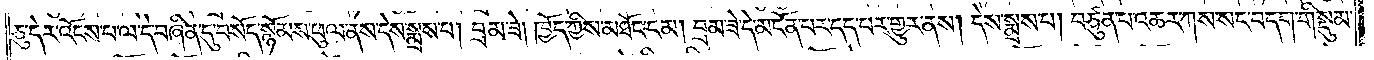ཅུ་དེར་འོངས་པ་ལ་དེ་བཞིན་དུ་བསོད་སྙོམས་ཕུལ་ནས་དེས་སྨྲས་པ། བྲམ་ཟེ། ཁྱོད་ཀྱིས་མཐོང་ངམ། བྲམ་ཟེ་དེ་མངོན་པར་དད་པར་གྱུར་ནས། དེས་སྨྲས་པ། བཙུན་པ་འཆར་ཀས་སང་བདག་གི་སྡུམ་
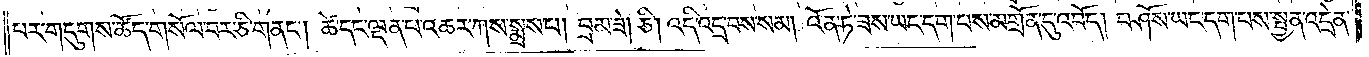པར་གདུགས་ཚོད་གསོལ་བར་ཅི་གནང༌། ཚེ་དང་ལྡན་པ་འཆར་ཀས་སྨྲས་པ། བྲམ་ཟེ། ཅི། འདི་འདྲ་བས་སམ། འོན་ཏེ་ཟས་ཡང་དག་པས་མགྲོན་དུ་འབོད། བཤོས་ཡང་དག་པས་སྤྱན་འདྲེན་
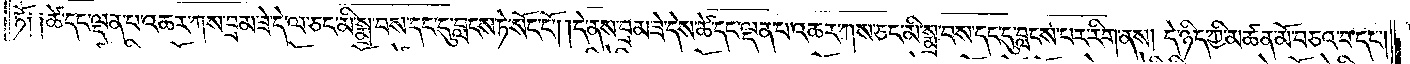ཏོ། །ཚེ་དང་ལྡན་པ་འཆར་ཀས་བྲམ་ཟེ་དེ་ལ་ཅང་མི་སྨྲ་བས་དང་དུ་བླངས་ཏེ་སོང་ངོ༌། །དེ་ནས་བྲམ་ཟེ་དེས་ཚེ་དང་ལྡན་པ་འཆར་ཀས་ཅང་མི་སྨྲ་བས་དང་དུ་བླངས་པར་རིག་ནས། དེ་ཉིད་ཀྱི་མཚན་མོ་བཅའ་བ་དང༌།
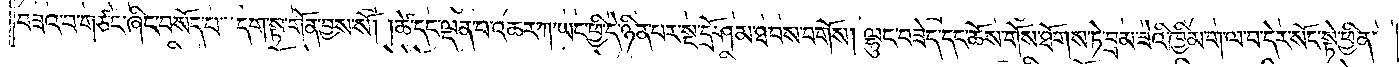བཟའ་བ་གཙང་ཞིང་བསོད་པ་དག་སྟ་གོན་བྱས་སོ། །ཚེ་དང་ལྡན་པ་འཆར་ཀ་ཡང་ཕྱི་དེ་ཉིན་པར་སྔ་དྲོ་ཤམ་ཐབས་བགོས། ལྷུང་བཟེད་དང་ཆོས་གོས་ཐོགས་ཏེ་བྲམ་ཟེའི་ཁྱིམ་ག་ལ་བ་དེར་སོང་སྟེ་ཕྱིན་
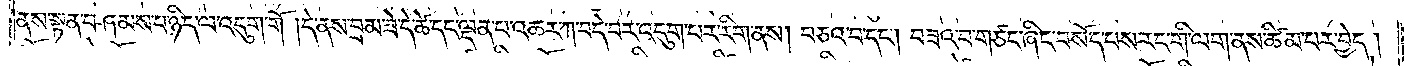ནས་སྟན་བཤམས་པ་ཉིད་ལ་འདུག་གོ །དེ་ནས་བྲམ་ཟེ་དེ་ཚེ་དང་ལྡན་པ་འཆར་ཀ་བདེ་བར་འདུག་པར་རིག་ནས། བཅའ་བ་དང༌། བཟའ་བ་གཙང་ཞིང་བསོད་པས་རང་གི་ལག་ནས་ཚིམ་པར་བྱེད་།
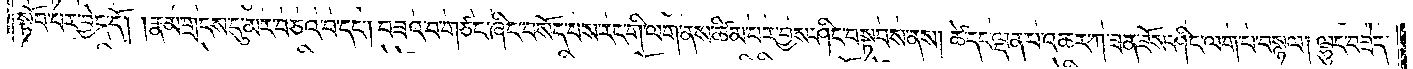སྟོབ་པར་བྱེད་དོ། །རྣམ་གྲངས་དུ་མར་བཅའ་བ་དང༌། བཟའ་བ་གཙང་ཞིང་བསོད་པས་རང་གི་ལག་ནས་ཚིམ་པར་བྱས་ཤིང་བསྟབས་ནས། ཚེ་དང་ལྡན་པ་འཆར་ཀ་ཟན་ཟོས་ཤིང་ལག་པ་བསྙལ། ལྷུང་བཟེད་
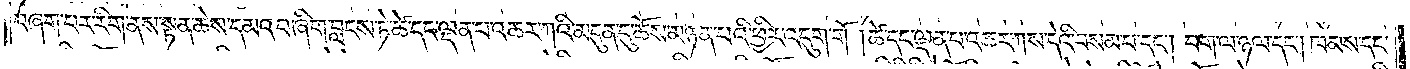བཞག་པར་རིག་ནས་སྟན་ཆེས་དམའ་བ་ཞིག་བླངས་ཏེ་ཚེ་དང་ལྡན་པ་འཆར་ཀའི་མདུན་དུ་ཆོས་མཉན་པའི་ཕྱིར་འདུག་གོ །ཚེ་དང་ལྡན་པ་འཆར་ཀས་དེའི་བསམ་པ་དང༌། བག་ལ་ཉལ་དང༌། ཁམས་དང་
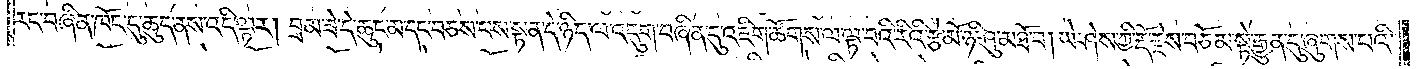རང་བཞིན་ཁོང་དུ་ཆུད་ནས་འདི་ལྟར། བྲམ་ཟེ་དེ་ཆུང་མ་དང་བཅས་པས་སྟན་དེ་ཉིད་ལ་འདུག་བཞིན་དུ་འཇིག་ཚོགས་ལ་ལྟ་བའི་རིའི་རྩེ་མོ་ཉི་ཤུ་མཐོ་བ། ཡེ་ཤེས་ཀྱི་རྡོ་རྗེ་བཅོམ་སྟེ་རྒྱུན་དུ་ཞུགས་པའི་
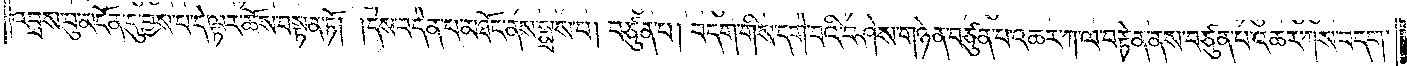འབྲས་བུ་མངོན་དུ་བྱས་པ་དེ་ལྟར་ཆོས་བསྟན་ཏོ། །དེས་བདེན་པ་མཐོང་ནས་སྨྲས་པ། བཙུན་པ། བདག་གིས་དགེ་བའི་བཤེས་གཉེན་བཙུན་པ་འཆར་ཀ་ལ་བརྟེན་ནས་བཙུན་པ་འཆར་ཀས་བདག་
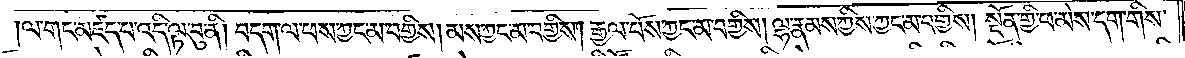།ལ་གང་མཛད་པ་འདི་ལྟ་བུ་ནི། བདག་ལ་ཕས་ཀྱང་མ་བགྱིས། མས་ཀྱང་མ་བགྱིས། རྒྱལ་པོས་ཀྱང་མ་བགྱིས། ལྷ་རྣམས་ཀྱིས་ཀྱང་མ་བགྱིས། སྔོན་གྱི་ཕ་མེས་དག་གིས་
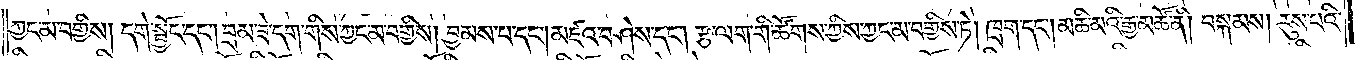ཀྱང་མ་བགྱིས། དགེ་སྦྱོང་དང༌། བྲམ་ཟེ་དག་གིས་ཀྱང་མ་བགྱིས། བྱམས་པ་དང༌། མཛའ་བཤེས་དང༌། རྩ་ལག་གི་ཚོགས་ཀྱིས་ཀྱང་མ་བགྱིས་ཏེ། ཁྲག་དང༌། མཆི་མའི་རྒྱ་མཚོ་ནི། བསྐམས། རུས་པའི་
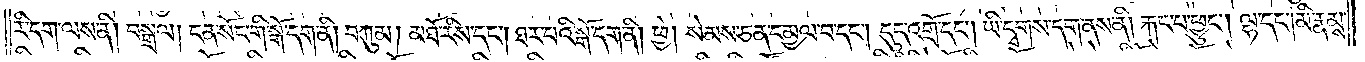རི་དག་ལས་ནི། བསྒྲལ། ངན་སོང་གི་སྒོ་དག་ནི། བཀུམ། མཐོ་རིས་དང༌། ཐར་པའི་སྒོ་དག་ནི། ཕྱེ། སེམས་ཅན་དམྱལ་བ་དང༌། དུད་འགྲོ་དང༌། ཡི་དྭགས་དག་ནས་ནི། རྐང་པ་ཕྱུང༌། ལྷ་དང༌། མི་རྣམས་
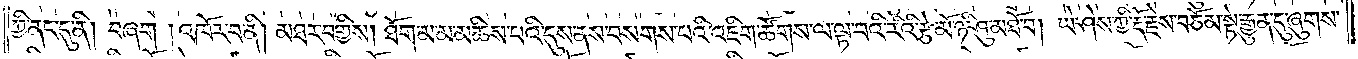ཀྱི་ནང་དུ་ནི། བཞག །འཁོར་བ་ནི། མཐར་བགྱིས། ཐོག་མ་མ་མཆིས་པའི་དུས་ནས་བསགས་པའི་འཇིག་ཚོགས་ལ་ལྟ་བའི་རིའི་རྩེ་མོ་ཉི་ཤུ་མཐོ་བ། ཡེ་ཤེས་ཀྱི་རྡོ་རྗེས་བཅོམ་སྟེ་རྒྱུན་དུ་ཞུགས་
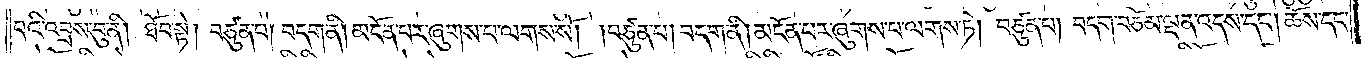པའི་འབྲས་བུ་ནི། ཐོབ་སྟེ། བཙུན་པ། བདག་ནི། མངོན་པར་ཞུགས་པ་ལགས་སོ། །བཙུན་པ། བདག་ནི། མངོན་པར་ཞུགས་པ་ལགས་ཏེ། བཙུན་པ། བདག་བཅོམ་ལྡན་འདས་དང༌། ཆོས་དང་
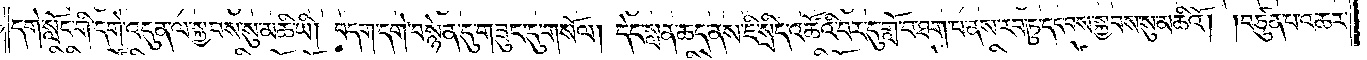དགེ་སློང་གི་དགེ་འདུན་ལ་སྐྱབས་སུ་མཆི་ཡི། བདག་དགེ་བསྙེན་དུ་གཟུང་དུ་གསོལ། དེང་སླན་ཆད་ནས་ཇི་སྲིད་འཚོའི་བར་དུ་གློ་བ་ཐག་པ་ནས་རབ་ཏུ་དང་བས་སྐྱབས་སུ་མཆིའོ། །བཙུན་པ་འཆར་
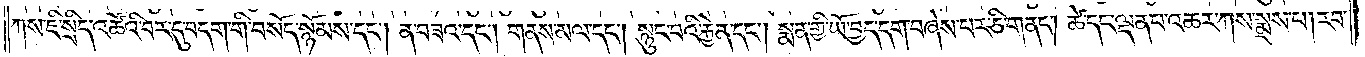ཀས་ཇི་སྲིད་འཚོའི་བར་དུ་བདག་གི་བསོད་སྙོམས་དང༌། ན་བཟའ་དང༌། གནས་མལ་དང༌། སྙུང་བའི་རྐྱེན་དང༌། སྨན་གྱི་ཡོ་བྱད་དག་བཞེས་པར་ཅི་གནང༌། ཚེ་དང་ལྡན་པ་འཆར་ཀས་སྨྲས་པ། རབ་
